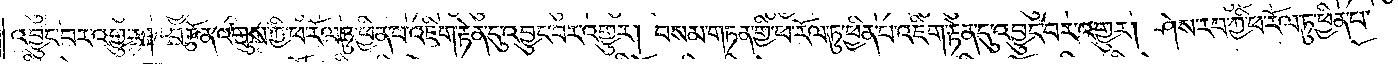འབྱུང་བར་འགྱུར། བརྩོན་འགྲུས་ཀྱི་ཕ་རོལ་ཏུ་ཕྱིན་པ་འཇིག་རྟེན་དུ་འབྱུང་བར་འགྱུར། བསམ་གཏན་གྱི་ཕ་རོལ་ཏུ་ཕྱིན་པ་འཇིག་རྟེན་དུ་འབྱུང་བར་འགྱུར། ཤེས་རབ་ཀྱི་ཕ་རོལ་ཏུ་ཕྱིན་པ་
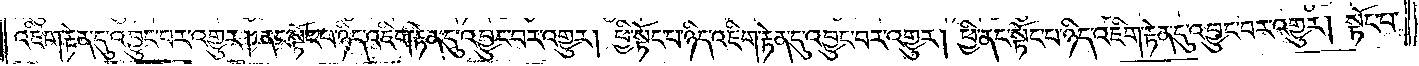འཇིག་རྟེན་དུ་འབྱུང་བར་འགྱུར། ནང་སྟོང་པ་ཉིད་འཇིག་རྟེན་དུ་འབྱུང་བར་འགྱུར། ཕྱི་སྟོང་པ་ཉིད་འཇིག་རྟེན་དུ་འབྱུང་བར་འགྱུར། ཕྱི་ནང་སྟོང་པ་ཉིད་འཇིག་རྟེན་དུ་འབྱུང་བར་འགྱུར། སྟོང་པ་
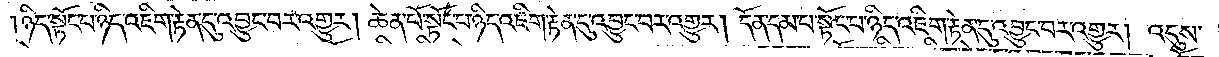ཉིད་སྟོང་པ་ཉིད་འཇིག་རྟེན་དུ་འབྱུང་བར་འགྱུར། ཆེན་པོ་སྟོང་པ་ཉིད་འཇིག་རྟེན་དུ་འབྱུང་བར་འགྱུར། དོན་དམ་པ་སྟོང་པ་ཉིད་འཇིག་རྟེན་དུ་འབྱུང་བར་འགྱུར། འདུས་
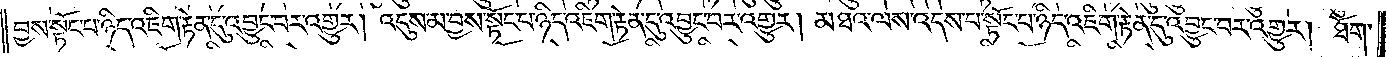བྱས་སྟོང་པ་ཉིད་འཇིག་རྟེན་དུ་འབྱུང་བར་འགྱུར། འདུས་མ་བྱས་སྟོང་པ་ཉིད་འཇིག་རྟེན་དུ་འབྱུང་བར་འགྱུར། མཐའ་ལས་འདས་པ་སྟོང་པ་ཉིད་འཇིག་རྟེན་དུ་འབྱུང་བར་འགྱུར། ཐོག་
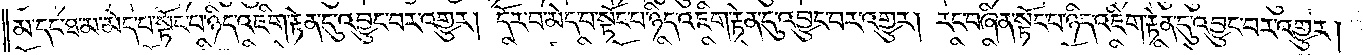མ་དང་ཐ་མ་མེད་པ་སྟོང་པ་ཉིད་འཇིག་རྟེན་དུ་འབྱུང་བར་འགྱུར། དོར་བ་མེད་པ་སྟོང་པ་ཉིད་འཇིག་རྟེན་དུ་འབྱུང་བར་འགྱུར། རང་བཞིན་སྟོང་པ་ཉིད་འཇིག་རྟེན་དུ་འབྱུང་བར་འགྱུར།
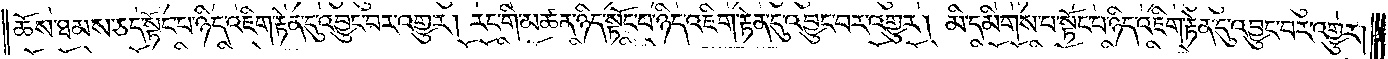ཆོས་ཐམས་ཅད་སྟོང་པ་ཉིད་འཇིག་རྟེན་དུ་འབྱུང་བར་འགྱུར། རང་གི་མཚན་ཉིད་སྟོང་པ་ཉིད་འཇིག་རྟེན་དུ་འབྱུང་བར་འགྱུར། མི་དམིགས་པ་སྟོང་པ་ཉིད་འཇིག་རྟེན་དུ་འབྱུང་བར་འགྱུར།
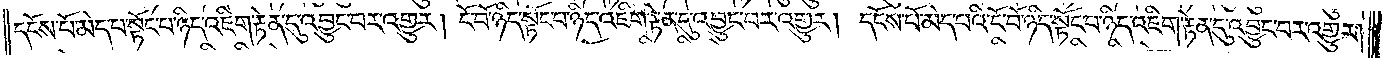དངོས་པོ་མེད་པ་སྟོང་པ་ཉིད་འཇིག་རྟེན་དུ་འབྱུང་བར་འགྱུར། ངོ་བོ་ཉིད་སྟོང་པ་ཉིད་འཇིག་རྟེན་དུ་འབྱུང་བར་འགྱུར། དངོས་པོ་མེད་པའི་ངོ་བོ་ཉིད་སྟོང་པ་ཉིད་འཇིག་རྟེན་དུ་འབྱུང་བར་འགྱུར།
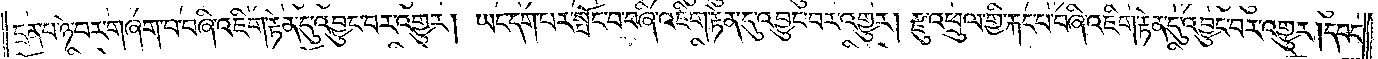དྲན་པ་ཉེ་བར་གཞག་པ་བཞི་འཇིག་རྟེན་དུ་འབྱུང་བར་འགྱུར། ཡང་དག་པར་སྤོང་བ་བཞི་འཇིག་རྟེན་དུ་འབྱུང་བར་འགྱུར། རྫུ་འཕྲུལ་གྱི་རྐང་པ་བཞི་འཇིག་རྟེན་དུ་འབྱུང་བར་འགྱུར། དབང་
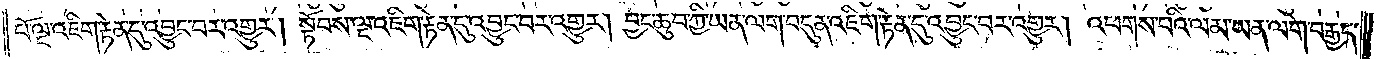པོ་ལྔ་འཇིག་རྟེན་དུ་འབྱུང་བར་འགྱུར། སྟོབས་ལྔ་འཇིག་རྟེན་དུ་འབྱུང་བར་འགྱུར། བྱང་ཆུབ་ཀྱི་ཡན་ལག་བདུན་འཇིག་རྟེན་དུ་འབྱུང་བར་འགྱུར། འཕགས་པའི་ལམ་ཡན་ལག་བརྒྱད་
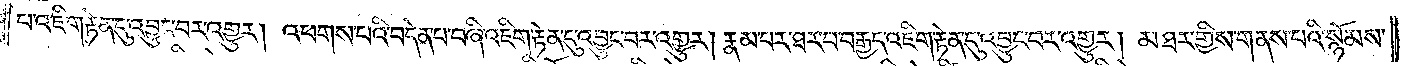པ་འཇིག་རྟེན་དུ་འབྱུང་བར་འགྱུར། འཕགས་པའི་བདེན་པ་བཞི་འཇིག་རྟེན་དུ་འབྱུང་བར་འགྱུར། རྣམ་པར་ཐར་པ་བརྒྱད་འཇིག་རྟེན་དུ་འབྱུང་བར་འགྱུར། མཐར་གྱིས་གནས་པའི་སྙོམས་
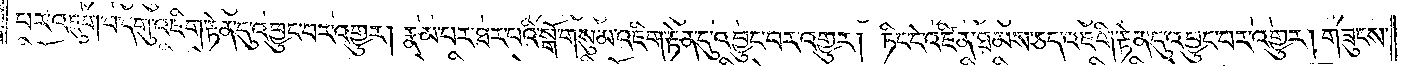པར་འཇུག་པ་དགུ་འཇིག་རྟེན་དུ་འབྱུང་བར་འགྱུར། རྣམ་པར་ཐར་པའི་སྒོ་གསུམ་འཇིག་རྟེན་དུ་འབྱུང་བར་འགྱུར། ཏིང་ངེ་འཛིན་ཐམས་ཅད་འཇིག་རྟེན་དུ་འབྱུང་བར་འགྱུར། གཟུངས་
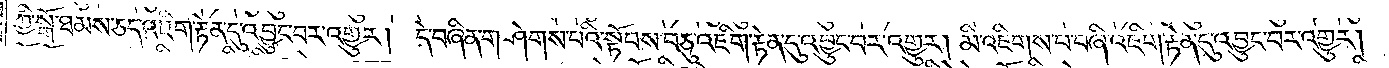ཀྱི་སྒོ་ཐམས་ཅད་འཇིག་རྟེན་དུ་འབྱུང་བར་འགྱུར། དེ་བཞིན་གཤེགས་པའི་སྟོབས་བཅུ་འཇིག་རྟེན་དུ་འབྱུང་བར་འགྱུར། མི་འཇིགས་པ་བཞི་འཇིག་རྟེན་དུ་འབྱུང་བར་འགྱུར།
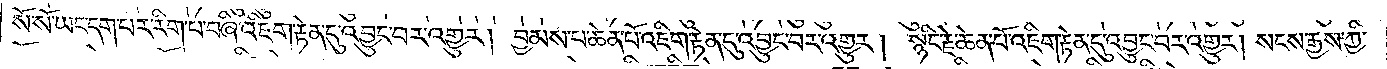སོ་སོ་ཡང་དག་པར་རིག་པ་བཞི་འཇིག་རྟེན་དུ་འབྱུང་བར་འགྱུར། བྱམས་པ་ཆེན་པོ་འཇིག་རྟེན་དུ་འབྱུང་བར་འགྱུར། སྙིང་རྗེ་ཆེན་པོ་འཇིག་རྟེན་དུ་འབྱུང་བར་འགྱུར། སངས་རྒྱས་ཀྱི་
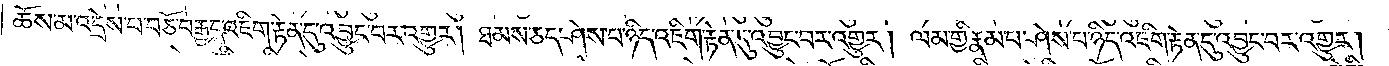ཆོས་མ་འདྲེས་པ་བཅོ་བརྒྱད་འཇིག་རྟེན་དུ་འབྱུང་བར་འགྱུར། ཐམས་ཅད་ཤེས་པ་ཉིད་འཇིག་རྟེན་དུ་འབྱུང་བར་འགྱུར། ལམ་གྱི་རྣམ་པ་ཤེས་པ་ཉིད་འཇིག་རྟེན་དུ་འབྱུང་བར་འགྱུར།
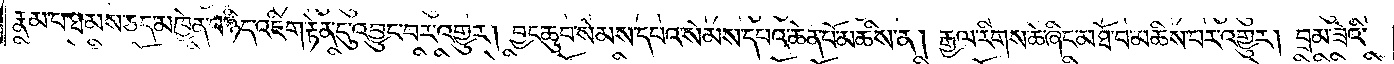རྣམ་པ་ཐམས་ཅད་མཁྱེན་པ་ཉིད་འཇིག་རྟེན་དུ་འབྱུང་བར་འགྱུར། བྱང་ཆུབ་སེམས་དཔའ་སེམས་དཔའ་ཆེན་པོ་མཆིས་ན། རྒྱལ་རིགས་ཆེ་ཞིང་མཐོ་བ་མཆིས་པར་འགྱུར། བྲམ་ཟེའི་
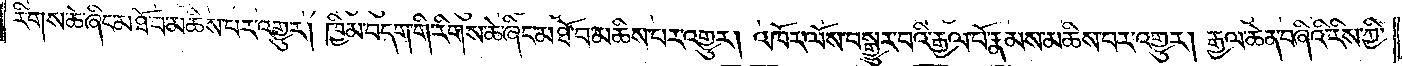རིགས་ཆེ་ཞིང་མཐོ་བ་མཆིས་པར་འགྱུར། ཁྱིམ་བདག་གི་རིགས་ཆེ་ཞིང་མཐོ་བ་མཆིས་པར་འགྱུར། འཁོར་ལོས་སྒྱུར་བའི་རྒྱལ་པོ་རྣམས་མཆིས་པར་འགྱུར། རྒྱལ་ཆེན་བཞིའི་རིས་ཀྱི་
